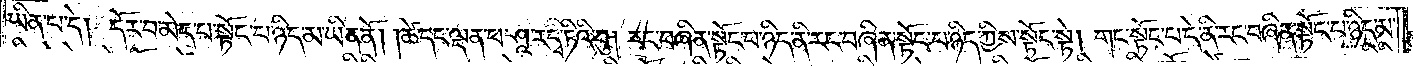ཡིན་པ་དེ། དོར་བ་མེད་པ་སྟོང་པ་ཉིད་མ་ཡིན་ནོ། །ཚེ་དང་ལྡན་པ་ཤཱ་ར་དྭ་ཏིའི་བུ། རང་བཞིན་སྟོང་པ་ཉིད་ནི་རང་བཞིན་སྟོང་པ་ཉིད་ཀྱིས་སྟོང་སྟེ། གང་སྟོང་པ་དེ་ནི་རང་བཞིན་སྟོང་པ་ཉིད་མ་
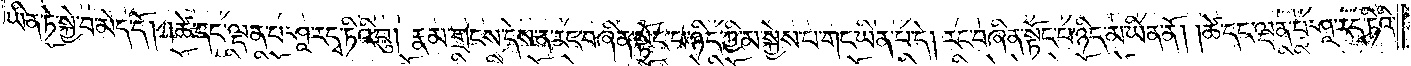ཡིན་ཏེ་སྐྱེ་བ་མེད་དོ། །ཚེ་དང་ལྡན་པ་ཤཱ་ར་དྭ་ཏིའི་བུ། རྣམ་གྲངས་དེས་ན་རང་བཞིན་སྟོང་པ་ཉིད་ཀྱི་མ་སྐྱེས་པ་གང་ཡིན་པ་དེ། རང་བཞིན་སྟོང་པ་ཉིད་མ་ཡིན་ནོ། །ཚེ་དང་ལྡན་པ་ཤཱ་ར་དྭ་ཏིའི་
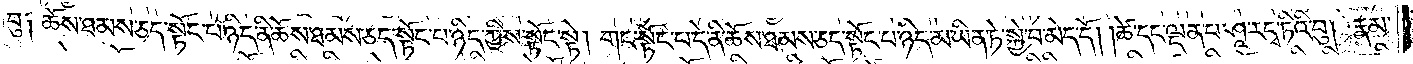བུ༏ ཆོས་ཐམས་ཅད་སྟོང་པ་ཉིད་ནི་ཆོས་ཐམས་ཅད་སྟོང་པ་ཉིད་ཀྱིས་སྟོང་སྟེ། གང་སྟོང་པ་དེ་ནི་ཆོས་ཐམས་ཅད་སྟོང་པ་ཉིད་མ་ཡིན་ཏེ་སྐྱེ་བ་མེད་དོ། །ཚེ་དང་ལྡན་པ་ཤཱ་ར་དྭ་ཏིའི་བུ། རྣམ་
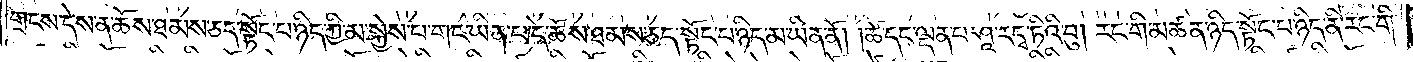གྲངས་དེས་ན་ཆོས་ཐམས་ཅད་སྟོང་པ་ཉིད་ཀྱི་མ་སྐྱེས་པ་གང་ཡིན་པ་དེ་ཆོས་ཐམས་ཅད་སྟོང་པ་ཉིད་མ་ཡིན་ནོ། །ཚེ་དང་ལྡན་པ་ཤཱ་ར་དྭ་ཏིའི་བུ། རང་གི་མཚན་ཉིད་སྟོང་པ་ཉིད་ནི་རང་གི་
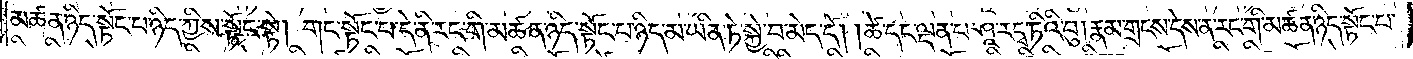མཚན་ཉིད་སྟོང་པ་ཉིད་ཀྱིས་སྟོང་སྟེ། གང་སྟོང་པ་དེ་ནི་རང་གི་མཚན་ཉིད་སྟོང་པ་ཉིད་མ་ཡིན་ཏེ་སྐྱེ་བ་མེད་དོ། །ཚེ་དང་ལྡན་པ་ཤཱ་ར་དྭ་ཏིའི་བུ། རྣམ་གྲངས་དེས་ན་རང་གི་མཚན་ཉིད་སྟོང་པ་
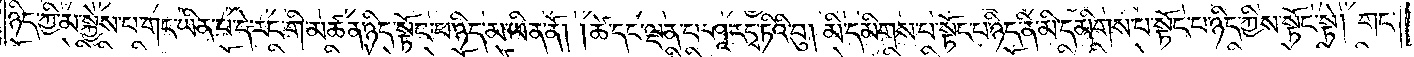ཉིད་ཀྱི་མ་སྐྱེས་པ་གང་ཡིན་པ་དེ་རང་གི་མཚན་ཉིད་སྟོང་པ་ཉིད་མ་ཡིན་ནོ། །ཚེ་དང་ལྡན་པ་ཤཱ་ར་དྭ་ཏིའི་བུ། མི་དམིགས་པ་སྟོང་པ་ཉིད་ནི་མི་དམིགས་པ་སྟོང་པ་ཉིད་ཀྱིས་སྟོང་སྟེ། གང་
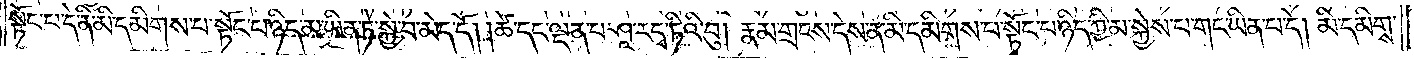སྟོང་པ་དེ་ནི་མི་དམིགས་པ་སྟོང་པ་ཉིད་མ་ཡིན་ཏེ་སྐྱེ་བ་མེད་དོ། །ཚེ་དང་ལྡན་པ་ཤཱ་ར་དྭ་ཏིའི་བུ། རྣམ་གྲངས་དེས་ན་མི་དམིགས་པ་སྟོང་པ་ཉིད་ཀྱི་མ་སྐྱེས་པ་གང་ཡིན་པ་དེ། མི་དམིགས་
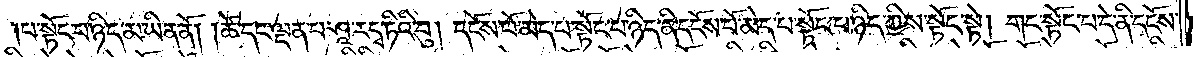པ་སྟོང་པ་ཉིད་མ་ཡིན་ནོ། །ཚེ་དང་ལྡན་པ་ཤཱ་ར་དྭ་ཏིའི་བུ། དངོས་པོ་མེད་པ་སྟོང་པ་ཉིད་ནི་དངོས་པོ་མེད་པ་སྟོང་པ་ཉིད་ཀྱིས་སྟོང་པ་སྟེ། གང་སྟོང་པ་དེ་ནི་དངོས་
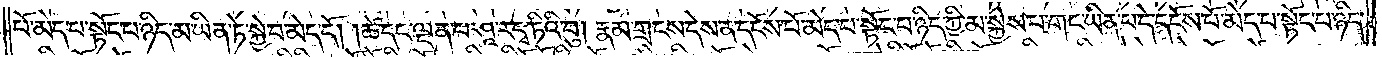པོ་མེད་པ་སྟོང་པ་ཉིད་མ་ཡིན་ཏེ་སྐྱེ་བ་མེད་དོ། །ཚེ་དང་ལྡན་པ་ཤཱ་ར་དྭ་ཏིའི་བུ། རྣམ་གྲངས་དེས་ན་དངོས་པོ་མེད་པ་སྟོང་པ་ཉིད་ཀྱི་མ་སྐྱེས་པ་གང་ཡིན་པ་དེ་དངོས་པོ་མེད་པ་སྟོང་པ་ཉིད་
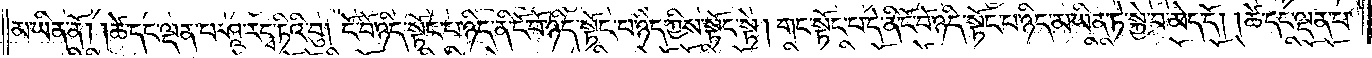མ་ཡིན་ནོ། །ཚེ་དང་ལྡན་པ་ཤཱ་ར་དྭ་ཏིའི་བུ། ངོ་བོ་ཉིད་སྟོང་པ་ཉིད་ནི་ངོ་བོ་ཉིད་སྟོང་པ་ཉིད་ཀྱིས་སྟོང་པ་སྟེ། གང་སྟོང་པ་དེ་ནི་ངོ་བོ་ཉིད་སྟོང་པ་ཉིད་མ་ཡིན་ཏེ་སྐྱེ་བ་མེད་དོ། །ཚེ་དང་ལྡན་པ་
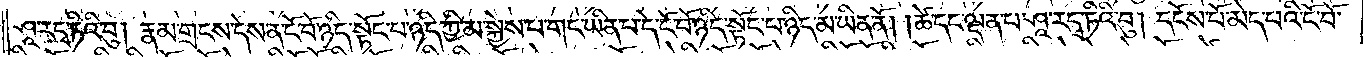ཤཱ་ར་དྭ་ཏིའི་བུ། རྣམ་གྲངས་དེས་ན་ངོ་བོ་ཉིད་སྟོང་པ་ཉིད་ཀྱི་མ་སྐྱེས་པ་གང་ཡིན་པ་དེ། ངོ་བོ་ཉིད་སྟོང་པ་ཉིད་མ་ཡིན་ནོ། །ཚེ་དང་ལྡན་པ་ཤཱ་ར་དྭ་ཏིའི་བུ། དངོས་པོ་མེད་པའི་ངོ་བོ་
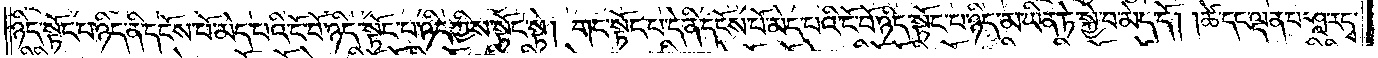ཉིད་སྟོང་པ་ཉིད་ནི་དངོས་པོ་མེད་པའི་ངོ་བོ་ཉིད་སྟོང་པ་ཉིད་ཀྱིས་སྟོང་སྟེ། གང་སྟོང་པ་དེ་ནི་དངོས་པོ་མེད་པའི་ངོ་བོ་ཉིད་སྟོང་པ་ཉིད་མ་ཡིན་ཏེ་སྐྱེ་བ་མེད་དོ། །ཚེ་དང་ལྡན་པ་ཤཱ་ར་དྭ་
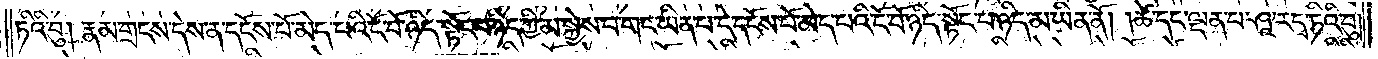ཏིའི་བུ། རྣམ་གྲངས་དེས་ན་དངོས་པོ་མེད་པའི་ངོ་བོ་ཉིད་སྟོང་པ་ཉིད་ཀྱི་མ་སྐྱེས་པ་གང་ཡིན་པ་དེ་དངོས་པོ་མེད་པའི་ངོ་བོ་ཉིད་སྟོང་པ་ཉིད་མ་ཡིན་ནོ། །ཚེ་དང་ལྡན་པ་ཤཱ་ར་དྭ་ཏིའི་བུ།
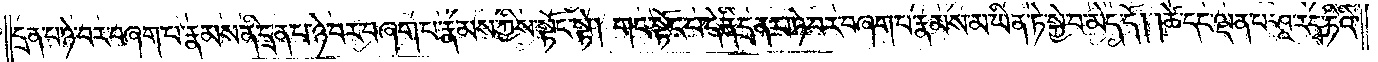དྲན་པ་ཉེ་བར་བཞག་པ་རྣམས་ནི་དྲན་པ་ཉེ་བར་བཞག་པ་རྣམས་ཀྱིས་སྟོང་སྟེ། གང་སྟོང་པ་དེ་ནི་དྲན་པ་ཉེ་བར་བཞག་པ་རྣམས་མ་ཡིན་ཏེ་སྐྱེ་བ་མེད་དོ། །ཚེ་དང་ལྡན་པ་ཤཱ་ར་དྭ་ཏིའི་
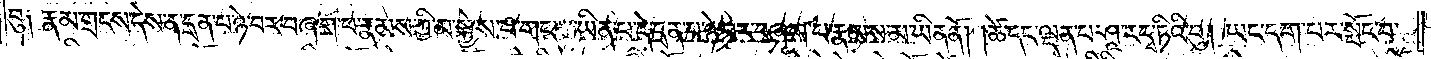བུ༏ རྣམ་གྲངས་དེས་ན་དྲན་པ་ཉེ་བར་བཞག་པ་རྣམས་ཀྱིས་མ་སྐྱེས་པ་གང་ཡིན་པ་དེ་དྲན་པ་ཉེ་བར་བཞག་པ་རྣམས་མ་ཡིན་ནོ། །ཚེ་དང་ལྡན་པ་ཤཱ་ར་དྭ་ཏིའི་བུ། ཡང་དག་པར་སྤོང་བ་
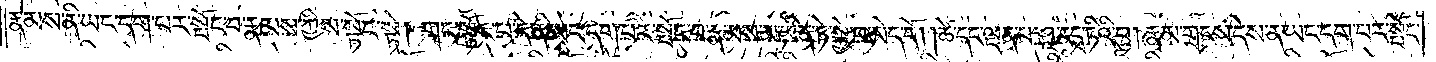རྣམས་ནི་ཡང་དག་པར་སྤོང་བ་རྣམས་ཀྱིས་སྟོང་སྟེ། གང་སྟོང་པ་དེ་ནི་ཡང་དག་པར་སྤོང་བ་རྣམས་མ་ཡིན་ཏེ་སྐྱེ་བ་མེད་དོ། །ཚེ་དང་ལྡན་པ་ཤཱ་ར་དྭ་ཏིའི་བུ། རྣམ་གྲངས་དེས་ན་ཡང་དག་པར་སྤོང་
